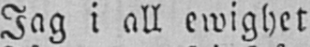Jag i all ewighet
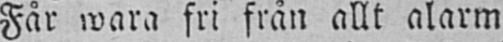Får wara fri från allt alarm
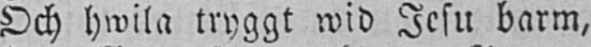Och hwila tryggt wid Jesu barm,
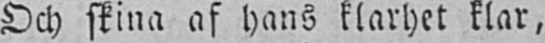Och skina af hans klarhet klar,
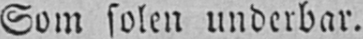Som solen underbar.
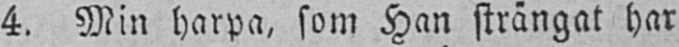4, Min harpa, som Han strängat har
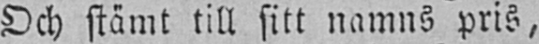Och stämt till sitt namns pris,
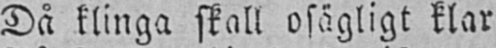Då klinga skall osägligt klar
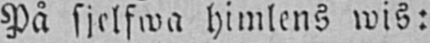På sjelfwa himlens wis:
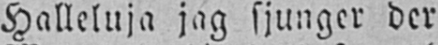Halleluja jag sjunger der
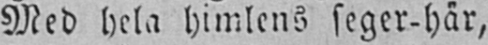Med hela himlens seger-här,
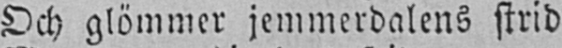Och glömmer jemmerdalens strid
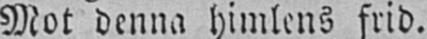Mot denna himlens frid.
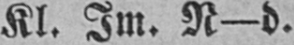Kl. Im. N-d.
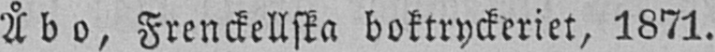Åbo, Frenckellska boktryckeriet, 1871.
